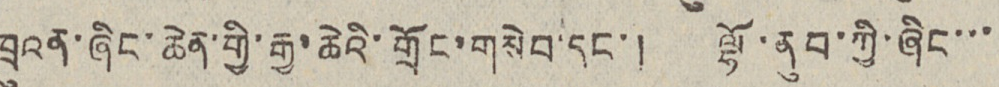ཁྲུའན་ཞིང་ཆེན་གྱི་རྒྱ་ཆེའི་གྲོང་གསེབ་དང་། ལྷོ་ནུབ་ཀྱི་ཞིང་་་
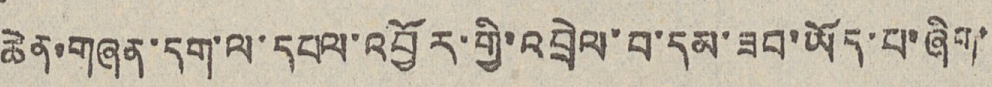ཆེན་གཞན་དག་ལ་དཔལ་འབྱོར་གྱི་འབྲེལ་བ་དམ་ཟབ་ཡོད་པ་ཞིག་
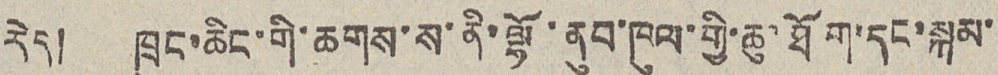རེད། ཁྲུང་ཆིང་གི་ཆགས་ས་ནི་ལྷོ་ནུབ་ཁུལ་གྱི་ཆུ་ཐོག་དང་སྐམ་
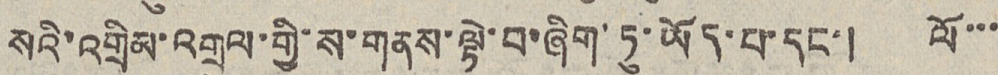སའི་འགྲིམ་འགྲུལ་གྱི་ས་གནས་ལྟེ་བ་ཞིག་ཏུ་ཡོད་པ་དང་། ལོ་་་
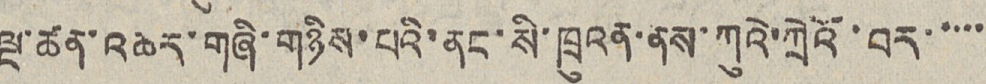ལྔ་ཚན་འཆར་གཞི་གཉིས་པའི་ནང་སི་ཁྲུའན་ནས་ཀུའེ་ཀྲེའོ་བར་་་་་
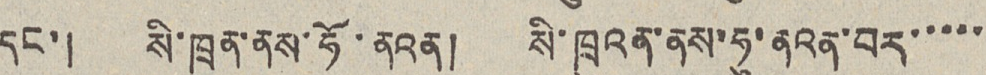དང་། སི་ཁྲུན་ནས་ཧོ་ནའན། སི་ཁྲུའན་ནས་ཧུ་ནའན་བར་་་་་
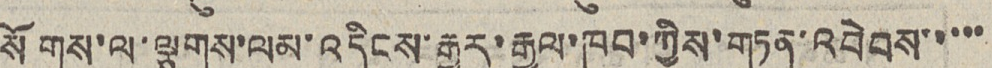སོགས་ལ་ལྕགས་ལམ་འདིངས་རྒྱུར་རྒྱལ་ཁབ་ཀྱིས་གཏན་འབེབས་་་་་
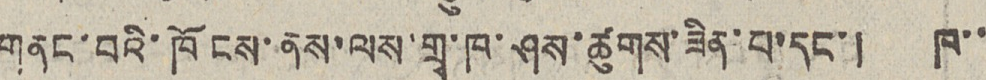གནང་བའི་ཁོངས་ནས་ལས་གྲྭ་ཁ་ཤས་ཚུགས་ཟིན་པ་དང་། ཁ་་
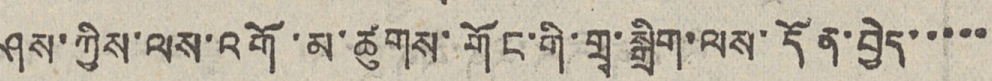ཤས་ཀྱིས་ལས་འགོ་མ་ཚུགས་གོང་གི་གྲྭ་སྒྲིག་ལས་དོན་བྱེད་་་་་
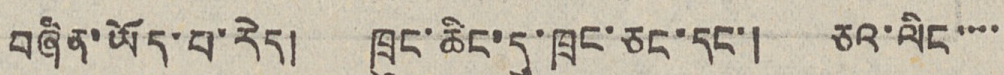བཞིན་ཡོད་པ་རེད། ཁྲུང་ཆིང་དུ་ཁྲང་ཅང་དང་། ཅའ་ལིང་་་་
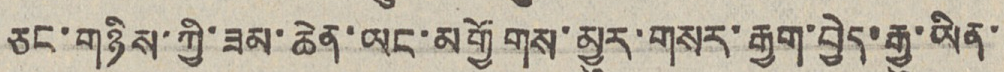ཅང་གཉིས་ཀྱི་ཟམ་ཆེན་ཡང་མགྱོགས་མྱུར་གསར་རྒྱག་བྱེད་རྒྱུ་ཡིན་
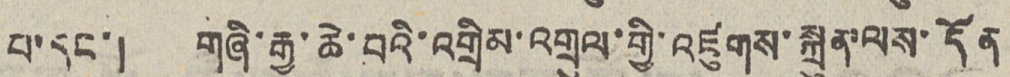པ་དང་། གཞི་རྒྱ་ཆེ་བའི་འགྲིམ་འགྲུལ་གྱི་འཛུགས་སྐྲུན་ལས་དོན
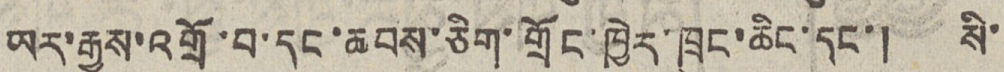ཡར་རྒྱས་འགྲོ་བ་དང་ཆབས་ཅིག་གྲོང་ཁྱེར་ཁྲུང་ཆིང་དང་། སི་
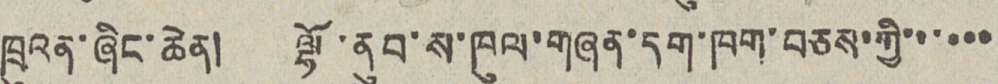ཁྲུའན་ཞིང་ཆེན། ལྷོ་ནུབ་ས་ཁུལ་གཞན་དག་ཁག་བཅས་ཀྱི་་་་་་
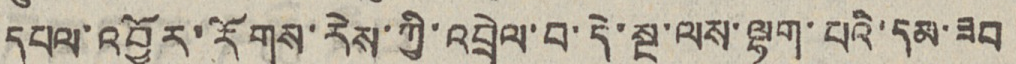དཔལ་འབྱོར་རོགས་རེས་ཀྱི་འབྲེལ་བ་དེ་སྔ་ལས་ལྷག་པའི་དམ་ཟབ
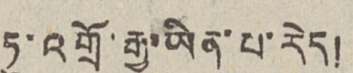ཏུ་འགྲོ་རྒྱུ་ཡིན་པ་རེད།
